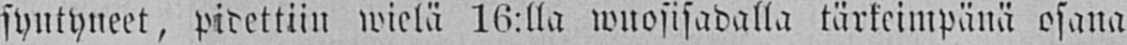syntyneet, pidettiin wielä 16:lla wuosisadalla tärkeimpänä osana
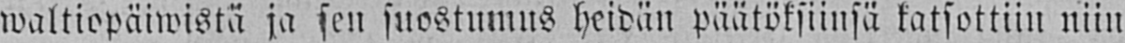waltiopäiwistä ja sen suostumus hoidan päätöksiinsä katsottiin niin
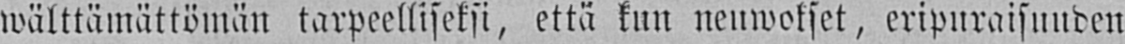wälttämättömän tarpeelliseksi, että kun neuwokset, eripuraisuuden
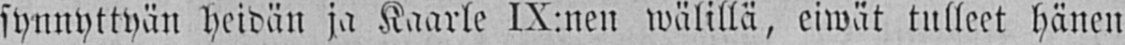synnyttyän heidän ja Kaarle IX:nen wälillä, eiwät tulleet hänen
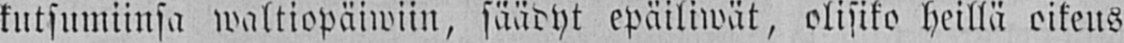kutsumiinsa waltiopäiwiin, säädyt epäiliwät, olisiko heillä oikeus
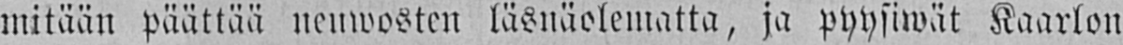mitään päättää neuwosten läsnäolematta, ja pyysiwät Kaarlon
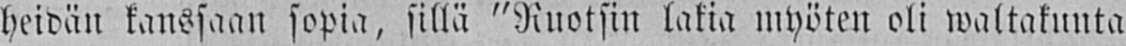heidän kanssaan sopia, sillä "Ruotsin lakia myöten oli waltakunta
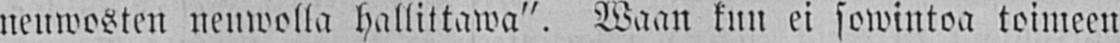neuwosten neuwolla hallittawa". Waan kun ei sowintoa toimeen
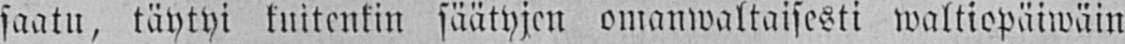saatu, täytyi kuitenkin säätyjen omanwaltaisesti waltiopäiwäin
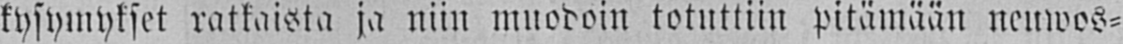kysymykset ratkaista ja niin muodoin totuttiiin pitämään neuwos-
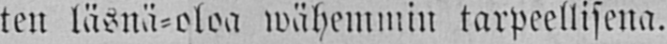ten läsnä-oloa wähemmin tarpeellisena.
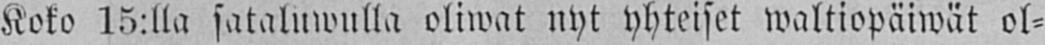Koko 15:lla sataluwulla oliwat nyt yhteiset waltiopäiwät ol-
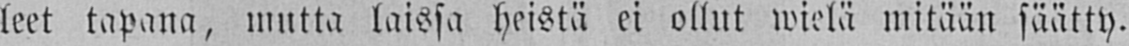leet tapana, mutta laissa heistä ei ollut wielä mitään säätty.
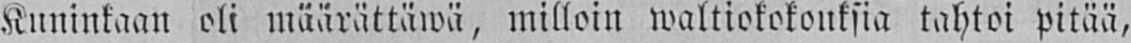Kuninkaan oli määrättäwä, milloin waltiokokouksia tahtoi pitää,
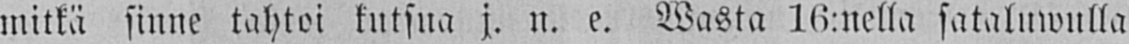mitkä sinne tahtoi kutsua j. n. e. Wasta 16:nella sataluwulla
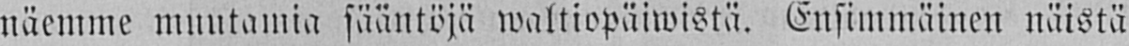näemme muutamia sääntöjä waltiopäiwistä. Ensimmäinen näistä
